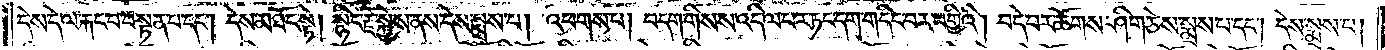དེས་དེ་ལ་རྐང་བ་བསྟན་པ་དང༌། དེས་མཐོང་སྟེ། སྙིང་རྗེ་སྐྱེས་ནས་དེས་སྨྲས་པ། འཕགས་པ། བདག་གིས་ས་འདི་ལ་བར་ཏང་དག་གདིང་བར་བགྱིའི། བདེ་བར་ཆོགས་ཤིག་ཅེས་སྨྲས་པ་དང༌། དེས་སྨྲས་པ།
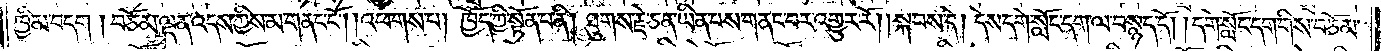ཁྱིམ་བདག །བཅོམ་ལྡན་འདས་ཀྱིས་མ་གནང་ངོ༌། །འཕགས་པ། ཁྱོད་ཀྱི་སྟོན་པ་ནི། ཐུགས་རྗེ་ཅན་ཡིན་པས་གནང་བར་འགྱུར་རོ། །སྐབས་དེ། དེས་དགེ་སློང་དག་ལ་བསྙད་དོ། །དགེ་སློང་དག་གིས་བཅོམ་
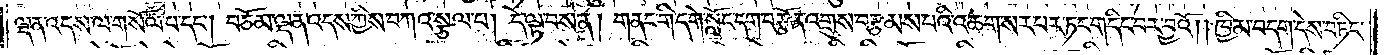ལྡན་འདས་ལ་གསོལ་པ་དང༌། བཅོམ་ལྡན་འདས་ཀྱིས་བཀའ་སྩལ་པ། དེ་ལྟ་བས་ན། གནང་གི་དགེ་སློང་དག་བརྩོན་འགྲུས་བརྩམས་པའི་འཆགས་པར་ཏང་གདིང་བར་བྱའོ། །ཁྱིམ་བདག་དེས་བཏིང་
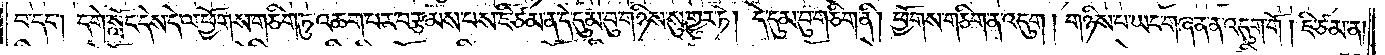བ་དང༌། དགེ་སློང་དེས་དེ་ལ་ཕྱོགས་གཅིག་ཏུ་འཆག་པར་བརྩམས་པས་ཇི་ཙམ་ན་དེ་དུམ་བུ་གཉིས་སུ་གྱུར་ཏེ། དེ་དུམ་བུ་གཅིག་ནི། ཕྱོགས་གཅིག་ན་འདུག །གཉིས་པ་ཡང་གཞན་ན་འདུག་གོ། ཇི་ཙམ་ན།
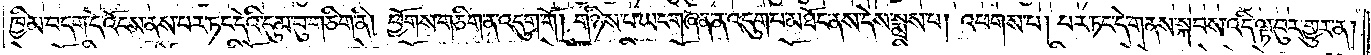ཁྱིམ་བདག་དེ་འོངས་ནས་པར་ཏང་དེའི་དུམ་བུ་གཅིག་ནི། ཕྱོགས་གཅིག་ན་འདུག་གོ། གཉིས་པ་ཡང་གཞན་ན་འདུག་པ་མཐོང་ནས་དེས་སྨྲས་པ། འཕགས་པ། པར་ཏང་དེ་གནས་སྐབས་འདི་ལྟ་བུར་གྱུར་ན།
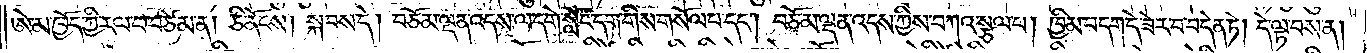ཨེ་མ་ཁྱོད་ཀྱི་རལ་པ་བཙེམ་ན། ཅི་ནོངས། སྐབས་དེ། བཅོམ་ལྡན་འདས་ལ་དགེ་སློང་དག་གིས་གསོལ་པ་དང༌། བཅོམ་ལྡན་འདས་ཀྱིས་བཀའ་སྩལ་པ། ཁྱིམ་བདག་དེ་ཟེར་བ་བདེན་ཏེ། དེ་ལྟ་བས་ན།
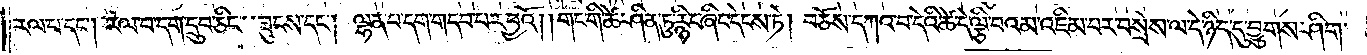རལ་པ་དང༌། རལ་པ་དག་དྲུབ་ཅིང་ཟུངས་དང༌། ལྷན་པ་དག་གདབ་པར་བྱའོ། །གང་གི་ཚེ་ཤིན་ཏུ་རྙིང་ཞིང་དེངས་ཏེ། བཅོས་དཀའ་བ་དེའི་ཚེ་དེ་ལྕི་བའམ་འཇིམ་པར་བསྲེས་ལ་དེ་ཉིད་དུ་བྱུགས་ཤིག་
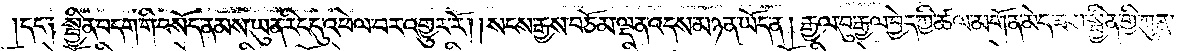དང་༑ སྦྱིན་བདག་གི་བསོད་ནམས་ཡུན་རིང་དུ་འཕེལ་བར་འགྱུར་རོ། །སངས་རྒྱས་བཅོམ་ལྡན་འདས་མཉན་ཡོད་ན། རྒྱལ་བུ་རྒྱལ་བྱེད་ཀྱི་ཚལ་མགོན་མེད་ཟས་སྦྱིན་གྱི་ཀུན་
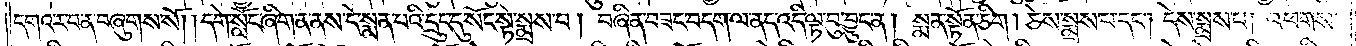དགའ་ར་བ་ན་བཞུགས་སོ། །དགེ་སློང་ཞིག་ན་ནས་དེ་སྨན་པའི་དྲུང་དུ་སོང་སྟེ་སྨྲས་པ། བཞིན་བཟང་བདག་ལ་ནད་འདི་ལྟ་བུ་བྱུང་ན། སྨན་སྟོན་ཅིག །ཅེས་སྨྲས་པ་དང༌། དེས་སྨྲས་པ། འཕགས་
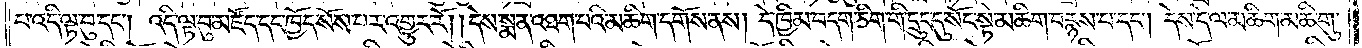པ་འདི་ལྟ་བུ་དང༌། འདི་ལྟ་བུ་མཛོད་དང་ཁྱོད་སོས་པར་འགྱུར་རོ། །དེས་སྨན་འཐག་པའི་མཆིག་དགོས་ནས། དེ་ཁྱིམ་བདག་ཅིག་གི་དྲུང་དུ་སོང་སྟེ་མཆིག་བརྙས་པ་དང༌། དེས་དེ་ལ་མཆིག་མཆི་གུ་
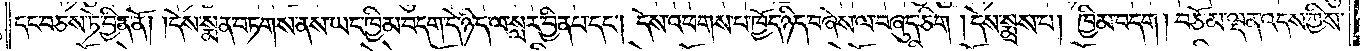དང་བཅས་ཏེ་བྱིན་ནོ། །དེས་སྨན་བཏགས་ནས་ཡང་ཁྱིམ་བདག་དེ་ཉིད་ལ་སླར་བྱིན་པ་དང༌། དེས་འཕགས་པ་ཁྱོད་ཉིད་བཞེས་ལ་བཞུད་ཅིག །དེས་སྨྲས་པ། ཁྱིམ་བདག། བཅོམ་ལྡན་འདས་ཀྱིས་
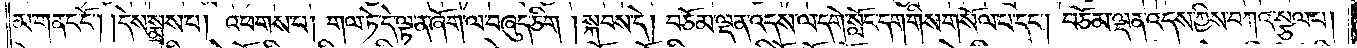མ་གནང་ངོ༌། །དེས་སྨྲས་པ། འཕགས་པ། གལ་ཏེ་དེ་ལྟ་ན་ཞོག་ལ་བཞུད་ཅིག །སྐབས་དེ། བཅོམ་ལྡན་འདས་ལ་དགེ་སློང་དག་གིས་གསོལ་པ་དང༌། བཅོམ་ལྡན་འདས་ཀྱིས་བཀའ་སྩལ་པ།
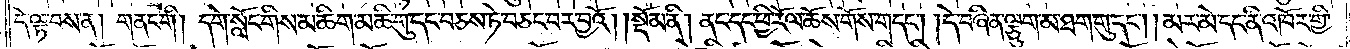དེ་ལྟ་བས་ན། གནང་གི། དགེ་སློང་གིས་མཆིག་མཆི་གུ་དང་བཅས་ཏེ་བཅང་བར་བྱའོ།    །སྡོམ་ནི། ནང་དང་ཕྱི་རོལ་ཆོས་གོས་གདང༌། དེ་བཞིན་ལྕུག་མ་ཐག་གུ་དང༌། མར་མེ་དང་ནི་འཁོར་གྱི་
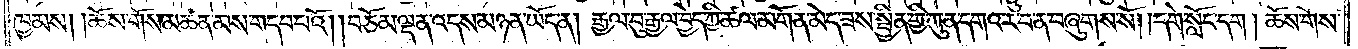ཁྱམས། །ཆོས་གོས་མཚན་མས་གདབ་པའོ། །བཅོམ་ལྡན་འདས་མཉན་ཡོད་ན། རྒྱལ་བུ་རྒྱལ་བྱེད་ཀྱི་ཚལ་མགོན་མེད་ཟས་སྦྱིན་གྱི་ཀུན་དགའ་ར་བ་ན་བཞུགས་སོ། །དགེ་སློང་དག །ཆོས་གོས་
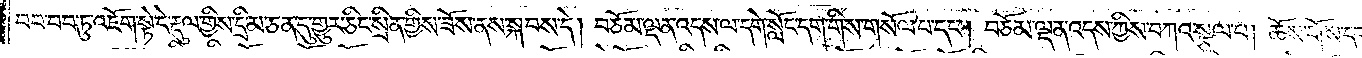བབ་བབ་ཏུ་འཇོག་སྟེ་དེ་རྡུལ་གྱིས་དྲི་མ་ཅན་དུ་གྱུར་ཅིང་སྲིན་གྱིས་ཟོས་ནས་སྐབས་དེ། བཅོམ་ལྡན་འདས་ལ་དགེ་སློང་དག་གིས་གསོལ་པ་དང༌། བཅོམ་ལྡན་འདས་ཀྱིས་བཀའ་སྩལ་པ། ཆོས་གོས་དག་
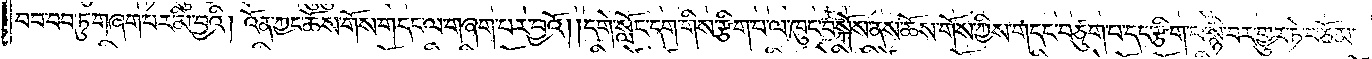བབ་བབ་ཏུ་གཞག་པར་མི་བྱའི། འོན་ཀྱང་ཆོས་གོས་གདང་ལ་གཞག་པར་བྱའོ། །དགེ་སློང་དག་གིས་རྩིག་པ་ལ་ཁུང་བསྐོས་ནས་ཆོས་གོས་ཀྱིས་གདང་བཙུག་པ་དང་རྩིག་པ་སྙི་བར་གྱུར་ཏེ་བཅོམ་
